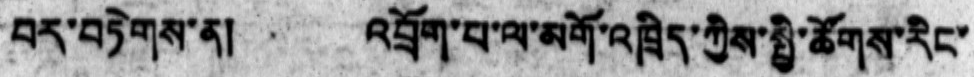བར་བཏེགས་ན། འབྲོག་པ་ལ་མགོ་འཁྲིད་ཀྱིས་སྤྱི་ཚོགས་རིང་
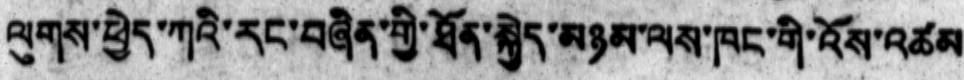ལུགས་ཕྱེད་ཀའི་རང་བཞིན་གྱི་ཐོན་སྐྱེད་མཉམ་ལས་ཁང་གི་འོས་འཚམ
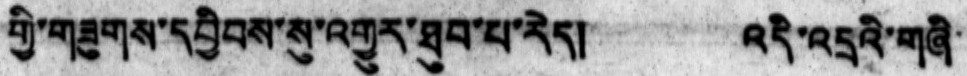གྱི་གཟུགས་དབྱིབས་སུ་འགྱུར་ཐུབ་པ་རེད། འདི་འདྲའི་གཞི་
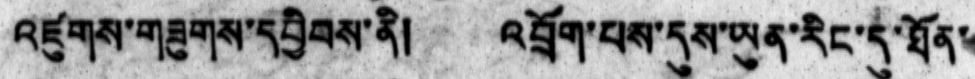འཛུགས་གཟུགས་དབྱིབས་ནི། འབྲོག་པས་དུས་ཡུན་རིང་དུ་ཐོན་
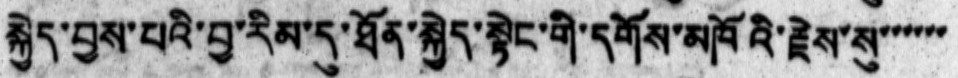སྐྱེད་བྱས་པའི་བྱ་རིམ་དུ་ཐོན་སྐྱེད་སྟེང་གི་དགོས་མཁོའི་རྗེས་སུ་་་་་་
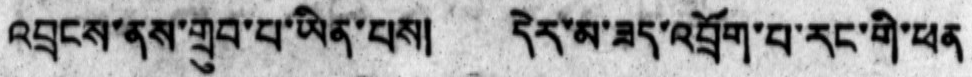འབྲངས་ནས་གྲུབ་པ་ཡིན་པས། དེར་མ་ཟད་འབྲོག་པ་རང་གི་ཕན
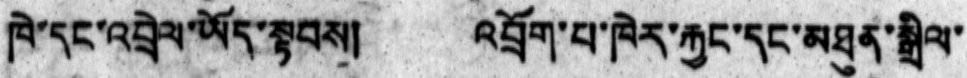ཁེ་དང་འབྲེལ་ཡོད་སྟབས། འབྲོག་པ་ཁེར་རྐྱང་དང་མཐུན་སྒྲིལ་
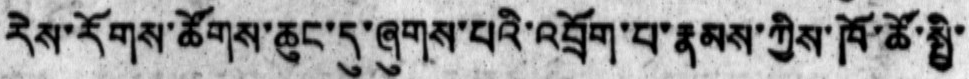རེས་རོགས་ཚོགས་ཆུང་དུ་ཞུགས་པའི་འབྲོག་པ་རྣམས་ཀྱིས་ཁོ་ཚོ་སྤྱི་
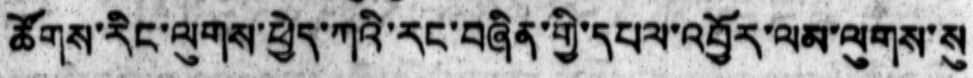ཚོགས་རིང་ལུགས་ཕྱེད་ཀའི་རང་བཞིན་གྱི་དཔལ་འབྱོར་ལམ་ལུགས་སུ
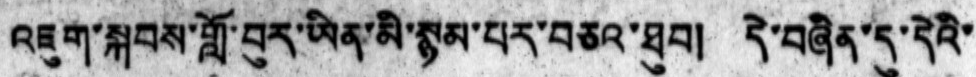འཇུག་སྐབས་གློ་བུར་ཡིན་མི་སྙམ་པར་བཅའ་ཐུབ། དེ་བཞིན་དུ་དེའི་
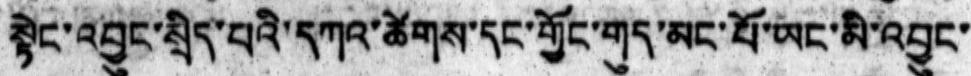སྟེང་འབྱུང་སྲིད་པའི་དཀའ་ཚེགས་དང་གྱོང་གུད་མང་པོ་ཡང་མི་འབྱུང་
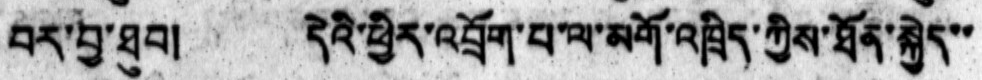བར་བྱ་ཐུབ། དེའི་ཕྱིར་འབྲོག་པ་ལ་མགོ་འཁྲིད་ཀྱིས་ཐོན་སྐྱེད་་
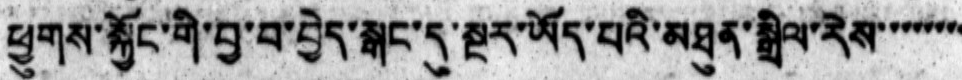ཕྱུགས་སྐྱོང་གི་བྱ་བ་བྱེད་སྒང་དུ་སྔར་ཡོད་པའི་མཐུན་སྒྲིལ་རེས་་་་་་་
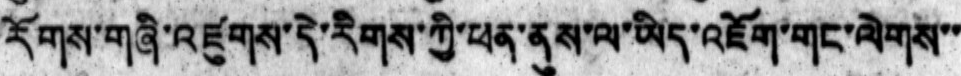རོགས་གཞི་འཛུགས་དེ་རིགས་ཀྱི་ཕན་ནུས་ལ་ཡིད་འཇོག་གང་ལེགས་་
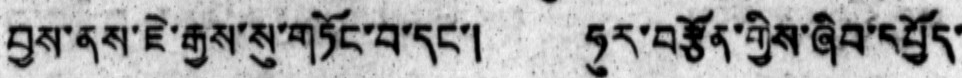བྱས་ནས་ཇེ་རྒྱས་སུ་གཏོང་བ་དང་། ཧུར་བརྩོན་གྱིས་ཞིབ་དཔྱོད་
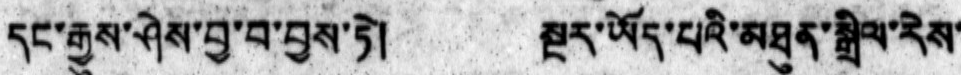དང་རྒྱས་ཤེས་བྱ་བ་བྱས་ཏེ། སྔར་ཡོད་པའི་མཐུན་སྒྲིལ་རེས་
